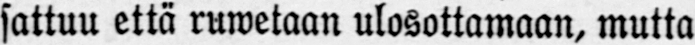sattuu että ruwetaan ulosottamaan, mutta
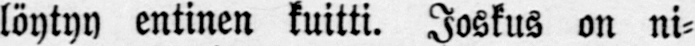löytyy entinen kuitti. Joskus on ni-
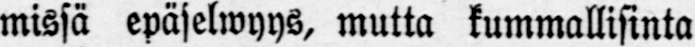missä epäselwyys, mutta kummallisinta
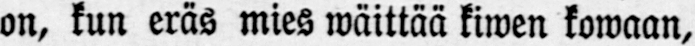on, kun eräs mies wäittää kiwen kowaan,
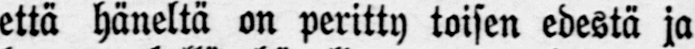että häneltä on peritty toisen edestä ja
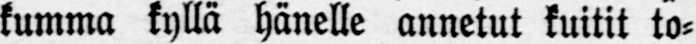kumma kyllä hänelle annetut kuitit to-
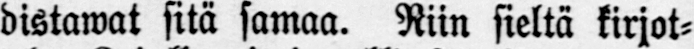distawat sitä samaa. Riin sieltä kirjot-
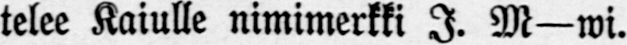telee Kaiulle nimimerkki I. M—wi.
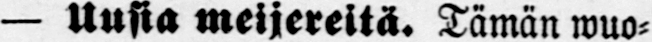— Uusia meijereitä. Tämän wuo-
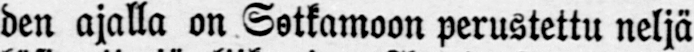den ajalla on Sotkamoon perustettu neljä
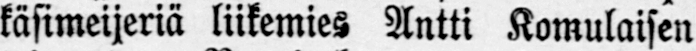käsimeijeriä liikemies Antti Komulaisen
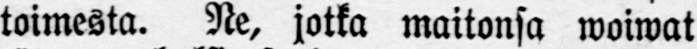toimesta. Ne, jotka maitonsa woiwat
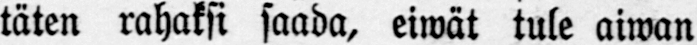täten rahaksi saada, eiwät tule aiwan
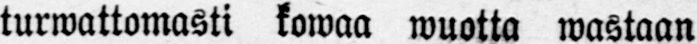turwattomasti kowaa wuotta wastaan
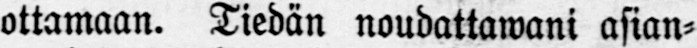ottamaan. Tiedän noudattawani asian-
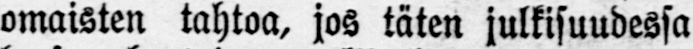omaisten tahtoa, jos täten julkisuudessa
